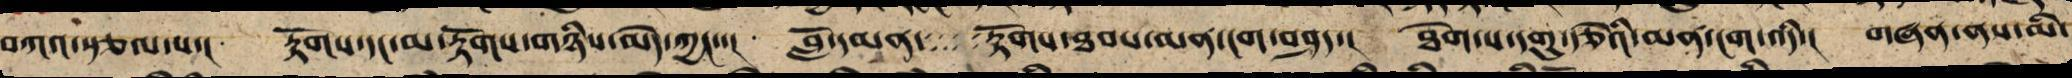བཀའ་སྩལ་པ་། རྟོགས་དང་མ་རྟོགས་གཉིས་མེད་ཀྱང་་། བློ་དམན་རྟོགས་ཐབས་མན་ངག་བཤད་། ཐེག་པ་དགུ་རྩེའི་མན་ངག་འདི་། གཞན་ནས་མི་
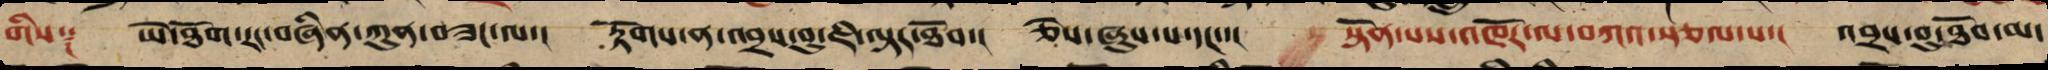གིས༑ ཡེ་ཐོག་རང་བཞིན་ཀུན་བཟང་ལ་། རྟོགས་ན་འབྲས་བུ་ཇི་ལྟར་ཐོབ་། ཅེས་ཞུས་པ་དང་་། སྟོན་པས་འཁོར་ལ་བཀའ་སྩལ་པ་། འབྲས་བུ་ཐོབ་མ་
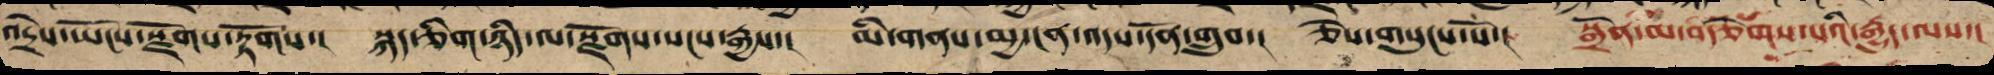འདྲེས་ཡོངས་སྫོགས་རྟོགས་། སྐད་ཅིག་ཉིད་ལ་སྫོགས་སངས་རྒྱས་། མི་གནས་མྱ་ངན་འདས་དོན་གྲུབ་། ཅེས་གསུངས་སོ་། སྒྲོན་མ་བརྩེགས་པའི་རྒྱུད་ལས་།
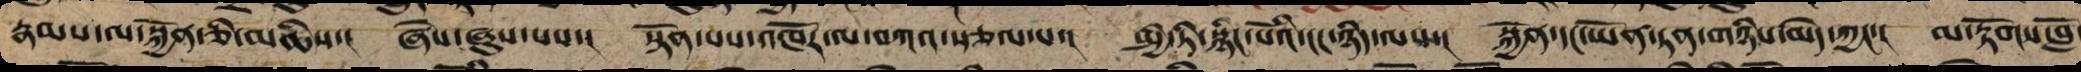རྣམས་ལ་སྐྱོན་ཅི་མཆིས་། ཞེས་ཞུས་པས་། སྟོན་པས་འཁོར་ལ་བཀའ་སྩལ་པ་། སྤྱི་ཏི་སྙིང་པོའི་ངང་ཉིད་ལ་། སྐྱོན་དང་ཡོན་ཏན་གཉིས་མེད་ཀྱང་། མ་རྟོགས་བློ
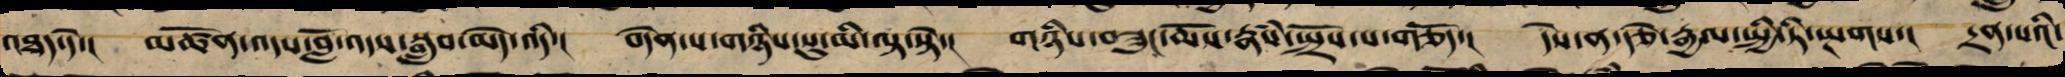འཐད་དེ་། མཚོན་འདས་བློ་འདས་སྒྲུབ་མེད་འདི་། བདེན་པ་གཉིས་སུ་མི་ལྟ་སྟེ་། གཉིས་བཟུང་ཆོས་རྣཾས་སྤྲོས་པ་གཅོད་། དེས་ན་རྩེ་རྒྱལ་སྤྱི་ཏི་སྤགས་། དྲན་པའི་
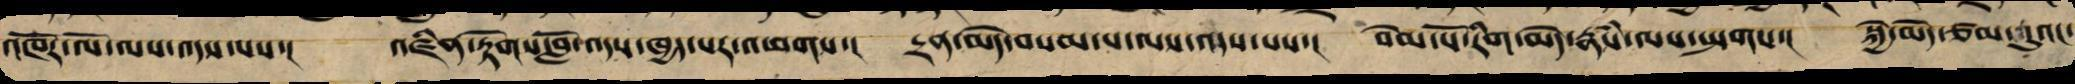འཁོར་ལོ་ལས་འདས་པས་། འཛིན་རྟོགས་བློ་ལས་ཁྱད་པར་འཕགས་། དྲན་མེད་བསམ་པ་ལས་འདས་པས་། བེམ་པོ་རིག་མེད་རྣཾས་ལས་སྤགས་། སྐྱེ་མེད་ཙམ་དུའང་
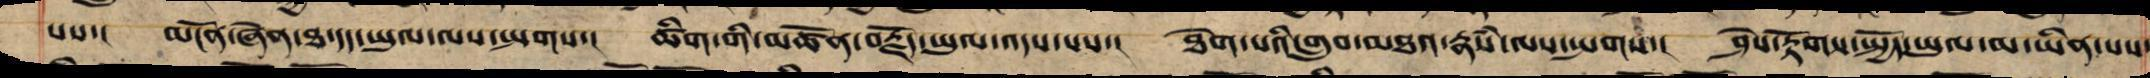པས་། མངོན་ཞེན་ཐ་དད་ཡུལ་ལས་སྤགས་། ཚིག་གིས་མཚོན་བརྗོད་ཡུལ་འདས་པས་། ཐེག་པའི་གྲུབ་མཐའ་རྣཾས་ལས་སྤགས་། ཤེས་རྟོགས་སྤྱད་ཡུལ་མ་ཡིན་པས
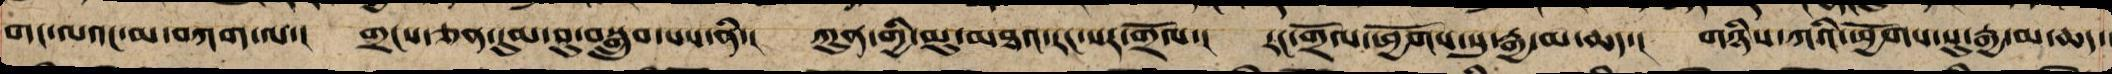གང་ལའང་མ་བཀག་ལ་། གྲངས་ཅན་དུམ་བུ་བསྒྲུབས་པས་ན། ཀུན་གྱི་མུ་མཐའ་རང་སར་གྲོལ་། རང་གྲོལ་ཕྱོགས་སུ་རྒྱ་མ་ཆད་། གཉིས་ཀའི་ཕྱོགས་སུ་རྒྱ་མ་ཆད་
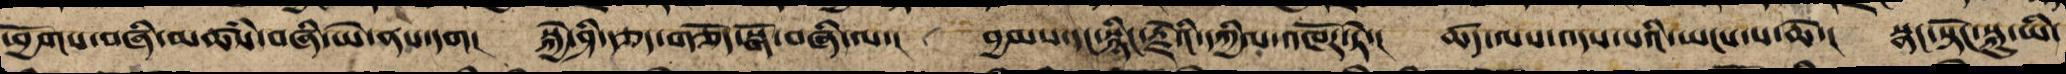ཕྱོགས་བཞི་མཚཾས་བཞི་ཡེ་ནས་དག། སྐྱེ་ཤི་རྩད་གཅོད་སྒོ་བཞི་ལ་། བྱམས་དང་སྙིང་རྗེའི་དཀྱིལ་འཁོར་ཏེ་། ཚད་ལས་འདས་པའི་ཡངས་པ་ཆེ་། སྣང་སྟོང་སྐུ་ཡི་
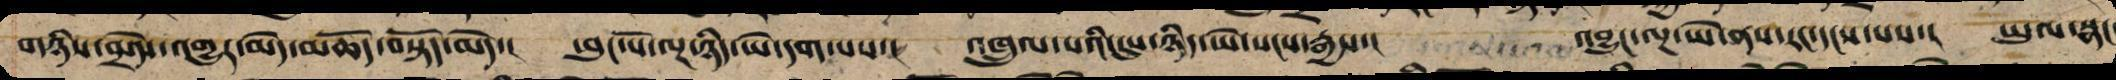གཉིས་མེད་འགྱུར་མེད་མཆོད་བསྟོད་མེད་། ཕུང་པོ་ལྔ་ཉིད་ཡེ་དག་པས་། འཁྲུལ་པའི་དུས་ཉིད་ཡེ་སངས་རྒྱས་། འབྱུང་ལྔ་ཡེ་ནས་རང་དངས་པས་། ཡུལ་སྣང་
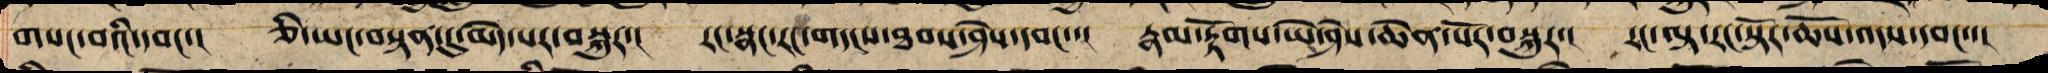གསང་བའི་དབང་། ཅི་ཡང་བསྟན་དུ་མེད་པར་བསྐུར་། རང་སྣང་རང་གདངས་ཐབས་ཤེས་དབང་་། རྣམ་རྟོག་ཡེ་ཤེས་ཆེན་པོར་བསྐུར་། རང་ལྟ་རང་སྟོར་ཆོས་འདས་དབང་་།
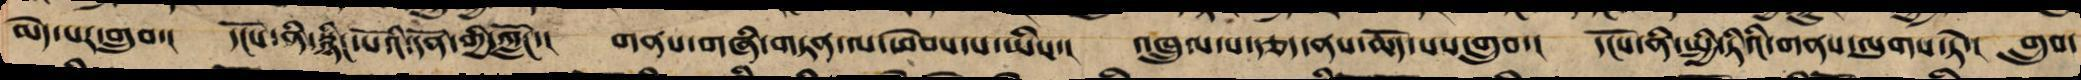མེད་པར་གྲུབ་། དངོས་ནི་སྙིང་པོ་དོན་གྱི་ཀློང་། གནས་གཞི་གཏན་ལ་ཕེབས་པ་ཡིས་། འཁྲུལ་པ་རྩད་ནས་ཆོད་པས་གྲུབ་། དངོས་ནི་སྤྱི་ཏིའི་གནས་ལུགས་ཏེ་། གྲུབ་
